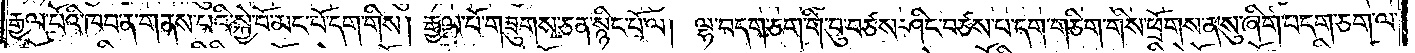རྒྱལ་པོའི་ཁབ་ན་གནས་པའི་སྐྱེ་བོ་མང་པོ་དག་གིས། རྒྱལ་པོ་གཟུགས་ཅན་སྙིང་པོ་ལ། ལྷ་བདག་ཅག་གི་བུ་བཙས་ཤིང་བཙས་པ་དག་གཅིག་གིས་ཕྲོགས་ན་སུ་ཞིག་བདག་ཅག་ལ་
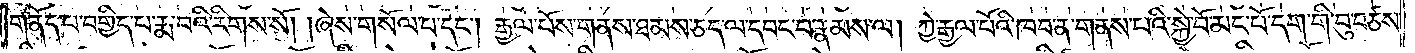གནོད་པ་བགྱིད་པ་རྨ་བའི་རིགས་སོ། །ཞེས་གསོལ་པ་དང༌། རྒྱལ་པོས་གནས་ཐམས་ཅད་ལ་དབང་བ་རྣམས་ལ། ཀྱེ་རྒྱལ་པོའི་ཁབ་ན་གནས་པའི་སྐྱེ་བོ་མང་པོ་དག་གི་བུ་བཙས་
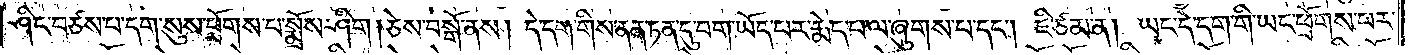ཤིང་བཙས་པ་དག་སུས་ཕྲོགས་པ་སྨྲོས་ཤིག །ཅེས་བསྒོ་ནས། དེ་དག་གིས་ནན་ཏན་དུ་བག་ཡོད་པར་རྨེད་པ་ལ་ཞུགས་པ་དང༌། ཇི་ཙམ་ན། ཡང་དེ་དག་གི་ཡང་ཕྲོགས་པར་
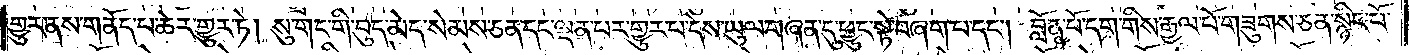གྱུར་ནས་གནོད་པ་ཆེར་གྱུར་ཏེ། སུ་གང་གི་བུད་མེད་སེམས་ཅན་དང་ལྡན་པར་གྱུར་པ་དེས་ཡུལ་གཞན་དུ་ཕྱུང་སྟེ་བཞག་པ་དང༌། བློན་པོ་དག་གིས་རྒྱལ་པོ་གཟུགས་ཅན་སྙིང་པོ་
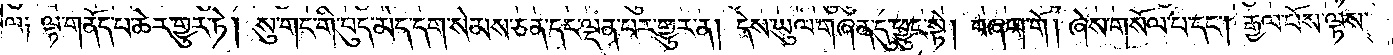ལ༑ ལྷ་གནོད་པ་ཆེར་གྱུར་ཏེ། སུ་གང་གི་བུད་མེད་དག་སེམས་ཅན་དང་ལྡན་པར་གྱུར་ན། དེས་ཡུལ་གཞན་དུ་ཕྱུང་སྟེ། བཞག་གོ། ཞེས་གསོལ་པ་དང༌། རྒྱལ་པོས་ལྟས་
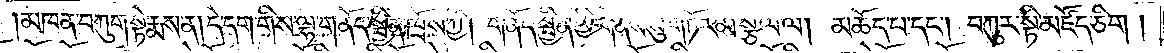མཁན་བཀུག་སྟེ་རྨས་ན། དེ་དག་གིས་ལྷ་གནོད་སྦྱིན་ཁྲོས་ཀྱི། གནོད་སྦྱིན་གྱི་གནས་སུ་གཏོར་མ་སྩལ་ལ། མཆོད་པ་དང༌། བཀུར་སྟི་མཛོད་ཅིག།
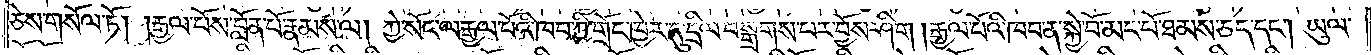ཅེས་གསོལ་ཏོ། །རྒྱལ་པོས་བློན་པོ་རྣམས་ལ། ཀྱེ་སོང་ལ་རྒྱལ་པོའི་ཁབ་ཀྱི་གྲོང་ཁྱེར་དུ་དྲིལ་བསྒྲགས་པར་བྱོས་ཤིག །རྒྱལ་པོའི་ཁབ་ན་སྐྱེ་བོ་མང་པོ་ཐམས་ཅད་དང༌། ཡུལ་
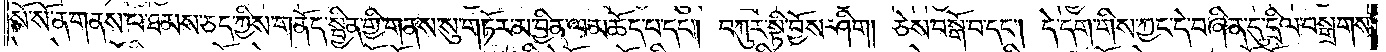སོ་སོ་ན་གནས་པ་ཐམས་ཅད་ཀྱིས་གནོད་སྦྱིན་གྱི་གནས་སུ་གཏོར་མ་བྱིན་ལ་མཆོད་པ་དང༌། བཀུར་སྟི་བྱོས་ཤིག །ཅེས་བསྒོ་བ་དང༌། དེ་དག་གིས་ཀྱང་དེ་བཞིན་དུ་དྲིལ་བསྒྲགས་
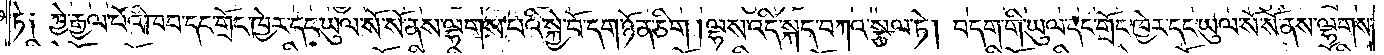ཏེ༑ ཀྱེ་རྒྱལ་པོའི་ཁབ་དང་གྲོང་ཁྱེར་དང་ཡུལ་སོ་སོ་ནས་ལྷགས་པའི་སྐྱེ་བོ་དག་ཉོན་ཅིག །ལྷས་འདི་སྐད་བཀའ་སྩལ་ཏེ། བདག་གི་ཡུལ་དང་གྲོང་ཁྱེར་དང་ཡུལ་སོ་སོ་ནས་ལྷགས་
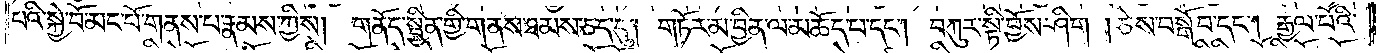པའི་སྐྱེ་བོ་མང་པོ་གནས་པ་རྣམས་ཀྱིས། གནོད་སྦྱིན་གྱི་གནས་ཐམས་ཅད་དུ། གཏོར་མ་བྱིན་ལ་མཆོད་པ་དང༌། བཀུར་སྟི་བྱོས་ཤིག །ཅེས་བསྒོ་བ་དང༌། རྒྱལ་པོའི་
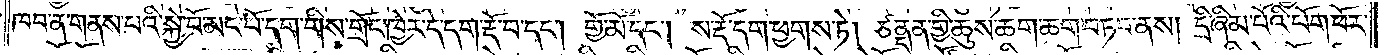ཁབ་ན་གནས་པའི་སྐྱེ་བོ་མང་པོ་དག་གིས་གྲོང་ཁྱེར་དེ་དག་རྡོ་བ་དང༌། གྱོ་མོ་དང༌། ས་རྡོ་དག་ཕྱགས་ཏེ། ཙནྡན་གྱི་ཆུས་ཆག་ཆག་བཏབ་ནས། དྲི་ཞིམ་པོའི་པོག་ཕོར་
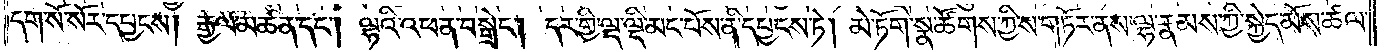དག་སོ་སོར་དཔྱངས། རྒྱལ་མཚན་དང༌། ལྷའི་འཕན་བསྒྲེང༌། དར་གྱི་ལྡ་ལྡི་མང་པོས་ནི་དཔྱངས་ཏེ། མེ་ཏོག་སྣ་ཚོགས་ཀྱིས་གཏོར་ནས་ལྷ་རྣམས་ཀྱི་སྐྱེད་མོས་ཚལ་
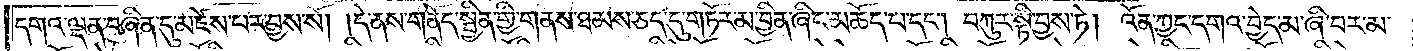དགའ་ལྡན་བཞིན་དུ་མཛེས་པར་བྱས་སོ། །དེ་ནས་གནོད་སྦྱིན་གྱི་གནས་ཐམས་ཅད་དུ་གཏོར་མ་བྱིན་ཞིང་མཆོད་པ་དང༌། བཀུར་སྟི་བྱས་ཏེ། འོན་ཀྱང་དགའ་བྱེད་མ་ཞི་བར་མ་
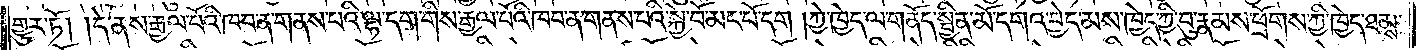གྱུར་ཏོ། །དེ་ནས་རྒྱལ་པོའི་ཁབ་ན་གནས་པའི་ལྷ་དག་གིས་རྒྱལ་པོའི་ཁབ་ན་གནས་པའི་སྐྱེ་བོ་མང་པོ་དག །ཀྱེ་ཁྱེད་ལ་གནོད་སྦྱིན་མོ་དགའ་བྱེད་མས་ཁྱེད་ཀྱི་བུ་རྣམས་ཕྲོགས་ཀྱི་ཁྱེད་ཐམས་
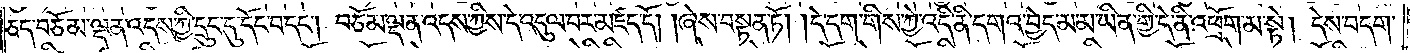ཅད་བཅོམ་ལྡན་འདས་ཀྱི་དྲུང་དུ་དོང་བ་དང༌། བཅོམ་ལྡན་འདས་ཀྱིས་དེ་འདུལ་བར་མཛད་དོ། །ཞེས་བསྟན་ཏོ། །དེ་དག་གིས་ཀྱེ་འདི་ནི་དགའ་བྱེད་མ་མ་ཡིན་གྱི་དེ་ནི་འཕྲོག་མ་སྟེ། དེས་བདག་
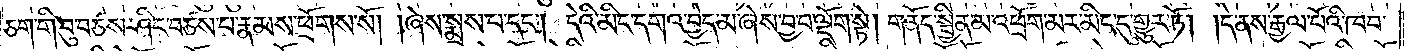ཅག་གི་བུ་བཙས་ཤིང་བཙས་པ་རྣམས་ཕྲོགས་སོ། །ཞེས་སྨྲས་པ་དང༌། དེའི་མིང་དགའ་བྱེད་མ་ཞེས་བྱ་བ་ལྡོག་སྟེ། གནོད་སྦྱིན་མ་འཕྲོག་མར་མིང་དུ་འགྱུར་ཏོ། །དེ་ནས་རྒྱལ་པོའི་ཁབ་
